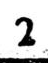2
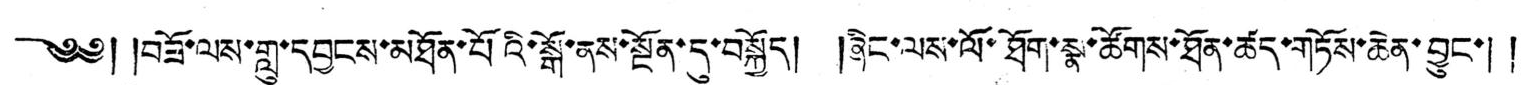༄༅། །བཟོ་ལས་གླུ་དབྱངས་མཐོན་པོའི་སྒོ་ནས་སྔོན་དུ་བསྐྱོད། །ཞིང་ལས་ལོ་ཐོག་སྣ་ཚོགས་ཐོན་ཚད་གཏོས་ཆེན་བྱུང་། །
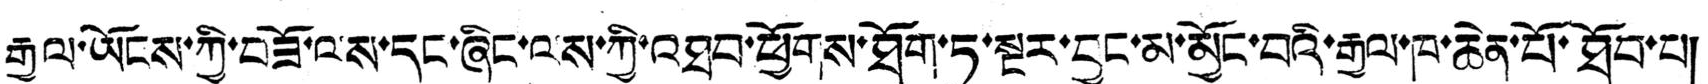རྒྱལ་ཡོངས་ཀྱི་བཟོ་ལས་དང་ཞིང་ལས་ཀྱི་འཐབ་ཕྱོགས་ཐོག་ཏུ་སྔར་བྱུང་མ་མྱོང་བའི་རྒྱལ་ཁ་ཆེན་པོ་ཐོབ་པ།
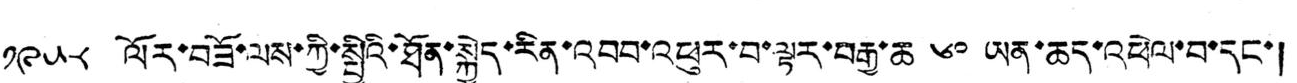༡༩༥༨ ལོར་བཟོ་ལས་ཀྱི་སྤྱིའི་ཐོན་སྐྱེད་རིན་འབབ་འཕུར་བ་ལྟར་བརྒྱ་ཆ ༦༠ ཡན་ཆད་འཕེལ་བ་དང་།
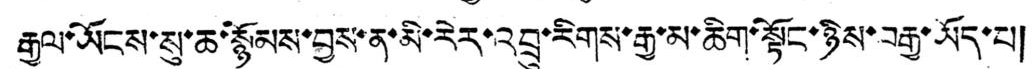རྒྱལ་ཡོངས་སུ་ཆ་སྙོམས་བྱས་ན་མི་རེར་འབྲུ་རིགས་རྒྱ་མ་ཆིག་སྟོང་ཉིས་བརྒྱ་ཡོད་པ།
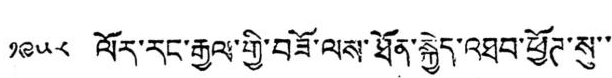༡༩༥༨ ལོར་རང་རྒྱལ་གྱི་བཟོ་ལས་ཐོན་སྐྱེད་འཐབ་ཕྱོཊ་སུ་་
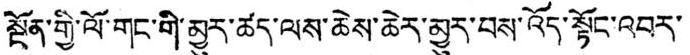སྔོན་གྱི་ལོ་གང་གི་མྱུར་ཚད་ལས་ཆེས་ཆེར་མྱུར་པས་འོད་སྟོང་འབར་
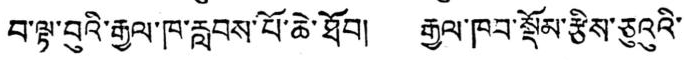བ་ལྟ་བུའི་རྒྱལ་ཁ་རླབས་པོ་ཆེ་ཐོབ། རྒྱལ་ཁབ་སྡོམ་རྩིས་ཅུའུའི་
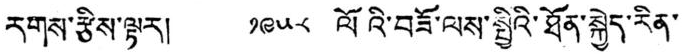རགས་རྩིས་ལྟར། ༡༩༥༨ ལོའི་བཟོ་ལས་སྤྱིའི་ཐོན་སྐྱེད་རིན་
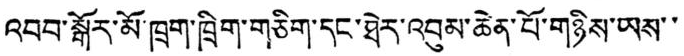འབབ་སྒོར་མོ་ཁྲག་ཁྲིག་གཅིག་དང་ཐེར་འབུམ་ཆེན་པོ་གཉིས་ཡས་་
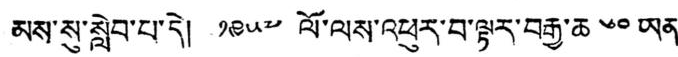མས་སུ་སླེབ་པ་དེ། ༡༩༥༧ ལོ་ལས་འཕུར་བ་ལྟར་བརྒྱ་ཆ ༦༠ ཡན་
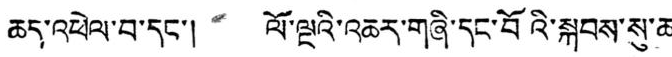ཆད་འཕེལ་བ་དང་། ལོ་ལྔའི་འཆར་གཞི་དང་བོའི་སྐབས་སུ་ཆ་
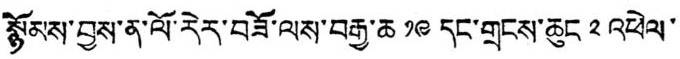སྙོམས་བྱས་ན་ལོ་རེར་བཟོ་ལས་བརྒྱ་ཆ ༡༩ དང་གྲངས་ཆུང ༢ འཕེལ་
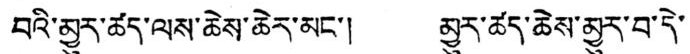བའི་མྱུར་ཚད་ལས་ཆེས་ཆེར་མང་། མྱུར་ཚད་ཆེས་མྱུར་བ་དེ་
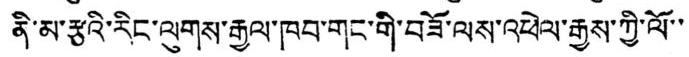ནི་མ་རྩའི་རིང་ལུགས་རྒྱལ་ཁབ་གང་གི་བཟོ་ལས་འཕེལ་རྒྱས་ཀྱི་ལོ་་
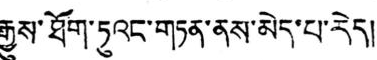རྒྱུས་ཐོག་ཏུའང་གཏན་ནས་མེད་པ་རེད།
